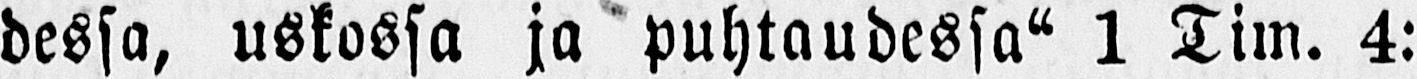dessa, uskossa ja puhtaudessa“ 1 Tim. 4:
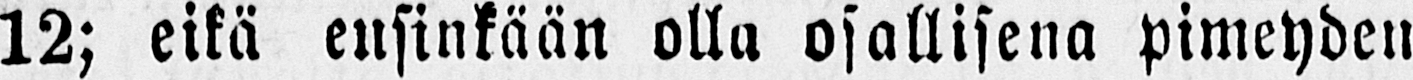12; eikä ensinkään olla osallisena pimeyden
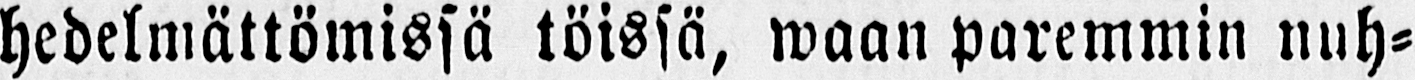hedelmättömissä töissä, waan paremmin nuh-
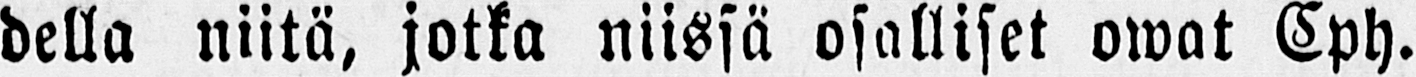della niitä, jotka niissä osalliset owat Cph.
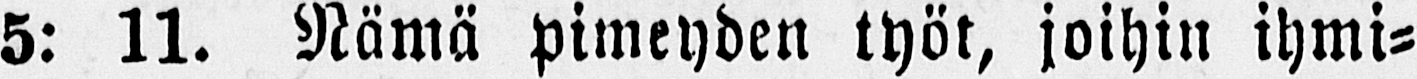5: 11. Nämä pimeyden työt, joihin ihmi-
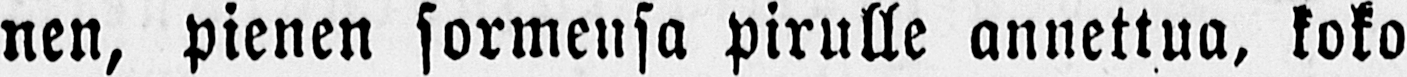nen, pienen sormensa pirulle annettua, koko
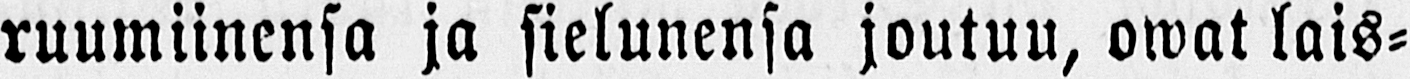ruumiinensa ja sielunensa joutuu, owat lais-
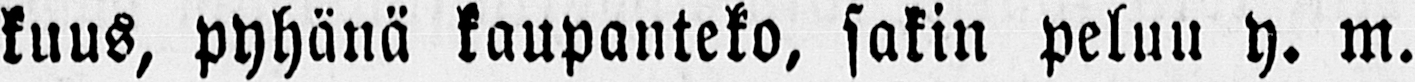kuus, pyhänä kaupanteko, sakin peluu y. m.
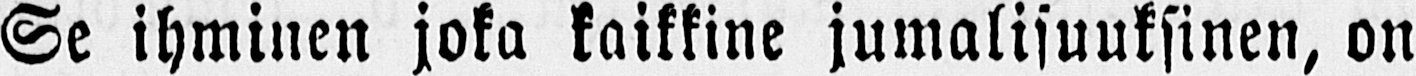Se ihminen joka kaikkine jumalisuuksinen, on
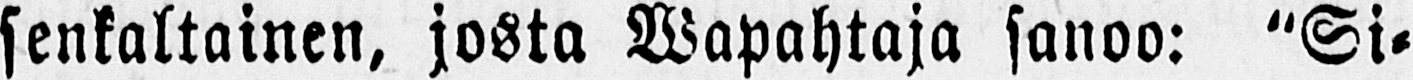senkaltainen, josta Wapahtaja sanoo: “Si-
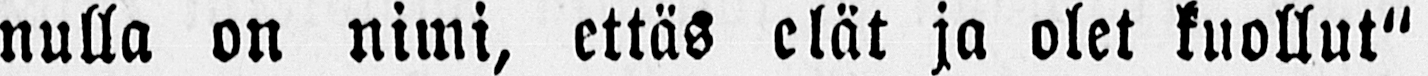nulla on nimi, ettäs elät ja olet kuollut“
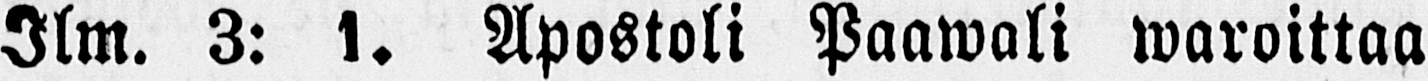Ilm. 3: 1. Apostoli Paawali waroittaa
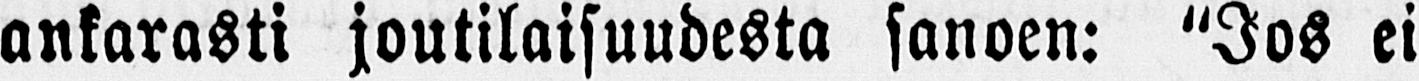ankarasti joutilaisuudesta sanoen: “Jos ei
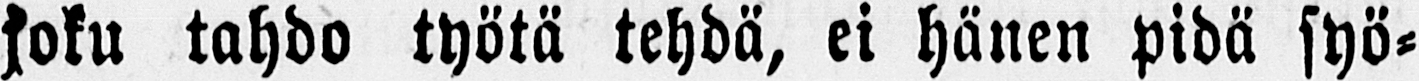joku tahdo työtä tehdä, ei hänen pidä syö-
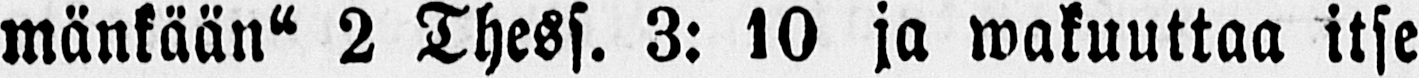mänkään“ 2 Thess. 3: 10 ja wakuuttaa itse
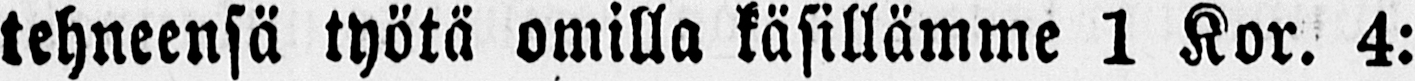tehneensä työtä omilla käsillämme 1 Kor. 4:
